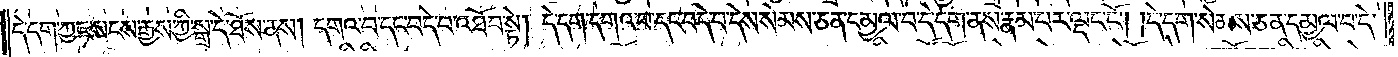དེ་དག་ཀྱང་སངས་རྒྱས་ཀྱི་སྒྲ་དེ་ཐོས་ནས། དགའ་བ་དང་བདེ་བ་འཐོབ་སྟེ། དེ་དག་དགའ་བ་དང་བདེ་བ་དེས་སེམས་ཅན་དམྱལ་བ་དེ་དག་ནས་རྣམ་པར་ལྡང་ངོ༌། །དེ་དག་སེམས་ཅན་དམྱལ་བ་དེ་
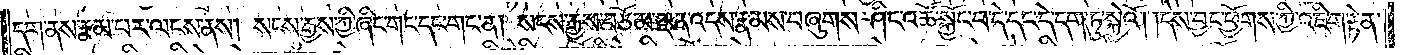དག་ནས་རྣམ་པར་ལངས་ནས། སངས་རྒྱས་ཀྱི་ཞིང་གང་དང་གང་ན། སངས་རྒྱས་བཅོམ་ལྡན་འདས་རྣམས་བཞུགས་ཤིང་འཚོ་སྐྱོང་བ་དེ་དང་དེ་དག་ཏུ་སྐྱེའོ། །དེས་བྱང་ཕྱོགས་ཀྱི་འཇིག་རྟེན་
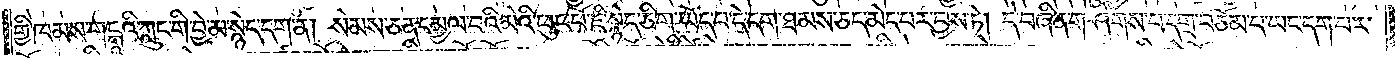གྱི་ཁམས་གངྒཱའི་ཀླུང་གི་བྱེ་མ་སྙེད་དག་ན། སེམས་ཅན་དམྱལ་བའི་མེའི་ཕུང་པོ་ཇི་སྙེད་ཅིག་ཡོད་པ་དེ་དག་ཐམས་ཅད་མེད་པར་བྱས་ཏེ། དེ་བཞིན་གཤེགས་པ་དགྲ་བཅོམ་པ་ཡང་དག་པར་
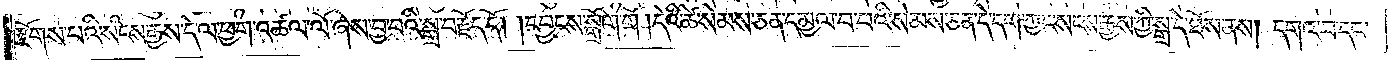རྫོགས་པའི་སངས་རྒྱས་དེ་ལ་ཕྱག་འཚལ་ལོ་ཞེས་བྱ་བའི་སྒྲ་བརྗོད་དོ། །དབྱངས་སྒྲོག་གོ །དེའི་ཚེ་སེམས་ཅན་དམྱལ་བ་པའི་སེམས་ཅན་དེ་དག་ཀྱང་སངས་རྒྱས་ཀྱི་སྒྲ་དེ་ཐོས་ནས། དགའ་བ་དང་
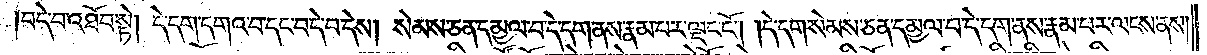བདེ་བ་འཐོབ་སྟེ། དེ་དག་དགའ་བ་དང་བདེ་བ་དེས། སེམས་ཅན་དམྱལ་བ་དེ་དག་ནས་རྣམ་པར་ལྡང་ངོ༌། །དེ་དག་སེམས་ཅན་དམྱལ་བ་དེ་དག་ནས་རྣམ་པར་ལངས་ནས།
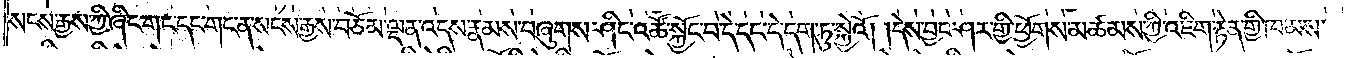སངས་རྒྱས་ཀྱི་ཞིང་གང་དང་གང་ན་སངས་རྒྱས་བཅོམ་ལྡན་འདས་རྣམས་བཞུགས་ཤིང་འཚོ་སྐྱོང་བ་དེ་དང་དེ་དག་ཏུ་སྐྱེའོ། །དེས་བྱང་ཤར་གྱི་ཕྱོགས་མཚམས་ཀྱི་འཇིག་རྟེན་གྱི་ཁམས་
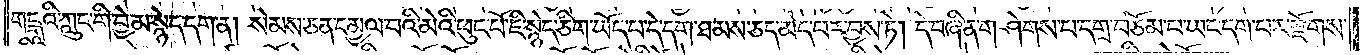གངྒཱའི་ཀླུང་གི་བྱེ་མ་སྙེད་དག་ན། སེམས་ཅན་དམྱལ་བའི་མེའི་ཕུང་པོ་ཇི་སྙེད་ཅིག་ཡོད་པ་དེ་དག་ཐམས་ཅད་མེད་པར་བྱས་ཏེ། དེ་བཞིན་གཤེགས་པ་དགྲ་བཅོམ་པ་ཡང་དག་པར་རྫོགས་
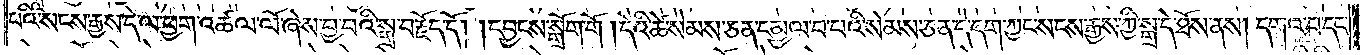པའི་སངས་རྒྱས་དེ་ལ་ཕྱག་འཚལ་ལོ་ཞེས་བྱ་བའི་སྒྲ་བརྗོད་དོ། །དབྱངས་སྒྲོག་གོ །དེའི་ཚེ་སེམས་ཅན་དམྱལ་བ་པའི་སེམས་ཅན་དེ་དག་ཀྱང་སངས་རྒྱས་ཀྱི་སྒྲ་དེ་ཐོས་ནས། དགའ་བ་དང་
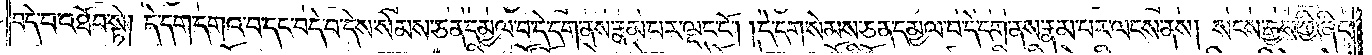བདེ་བ་འཐོབ་སྟེ། དེ་དག་དགའ་བ་དང་བདེ་བ་དེས་སེམས་ཅན་དམྱལ་བ་དེ་དག་ནས་རྣམ་པར་ལྡང་ངོ༌། །དེ་དག་སེམས་ཅན་དམྱལ་བ་དེ་དག་ནས་རྣམ་པར་ལངས་ནས། སངས་རྒྱས་ཀྱི་ཞིང་
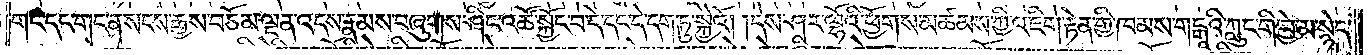གང་དང་གང་ན། སངས་རྒྱས་བཅོམ་ལྡན་འདས་རྣམས་བཞུགས་ཤིང་འཚོ་སྐྱོང་བ་དེ་དང་དེ་དག་ཏུ་སྐྱེའོ། །དེས་ཤར་ལྷོའི་ཕྱོགས་མཚམས་ཀྱི་འཇིག་རྟེན་གྱི་ཁམས་གངྒཱའི་ཀླུང་གི་བྱེ་མ་སྙེད་
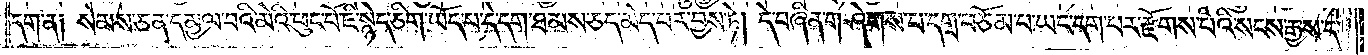དག་ན། སེམས་ཅན་དམྱལ་བའི་མེའི་ཕུང་པོ་ཇི་སྙེད་ཅིག་ཡོད་པ་དེ་དག་ཐམས་ཅད་མེད་པར་བྱས་ཏེ། དེ་བཞིན་གཤེགས་པ་དགྲ་བཅོམ་པ་ཡང་དག་པར་རྫོགས་པའི་སངས་རྒྱས་དེ་
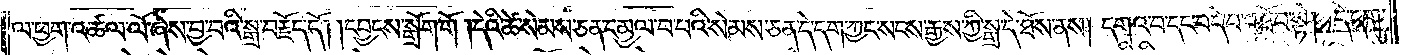ལ་ཕྱག་འཚལ་ལོ་ཞེས་བྱ་བའི་སྒྲ་བརྗོད་དོ། །དབྱངས་སྒྲོག་གོ །དེའི་ཚེ་སེམས་ཅན་དམྱལ་བ་པའི་སེམས་ཅན་དེ་དག་ཀྱང་སངས་རྒྱས་ཀྱི་སྒྲ་དེ་ཐོས་ནས། དགའ་བ་དང་བདེ་བ་འཐོབ་སྟེ། དེ་དག་
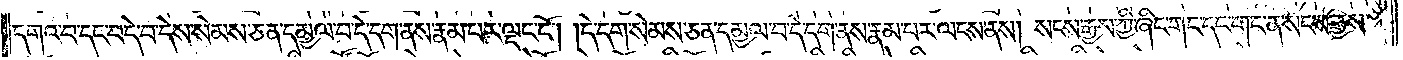དགའ་བ་དང་བདེ་བ་དེས་སེམས་ཅན་དམྱལ་བ་དེ་དག་ནས་རྣམ་པར་ལྡང་ངོ༌། །དེ་དག་སེམས་ཅན་དམྱལ་བ་དེ་དག་ནས་རྣམ་པར་ལངས་ནས། སངས་རྒྱས་ཀྱི་ཞིང་གང་དང་གང་ན། སངས་རྒྱས་
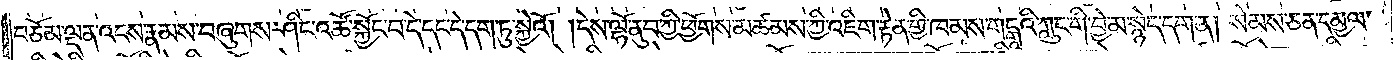བཅོམ་ལྡན་འདས་རྣམས་བཞུགས་ཤིང་འཚོ་སྐྱོང་བ་དེ་དང་དེ་དག་ཏུ་སྐྱེའོ། །དེས་ལྷོ་ནུབ་ཀྱི་ཕྱོགས་མཚམས་ཀྱི་འཇིག་རྟེན་གྱི་ཁམས་གངྒཱའི་ཀླུང་གི་བྱེ་མ་སྙེད་དག་ན། སེམས་ཅན་དམྱལ་
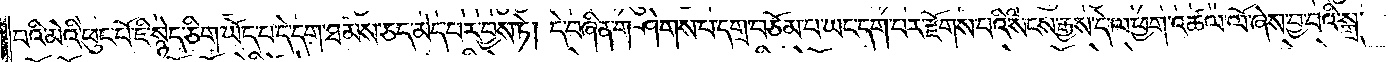བའི་མེའི་ཕུང་པོ་ཇི་སྙེད་ཅིག་ཡོད་པ་དེ་དག་ཐམས་ཅད་མེད་པར་བྱས་ཏེ། དེ་བཞིན་གཤེགས་པ་དགྲ་བཅོམ་པ་ཡང་དག་པར་རྫོགས་པའི་སངས་རྒྱས་དེ་ལ་ཕྱག་འཚལ་ལོ་ཞེས་བྱ་བའི་སྒྲ་
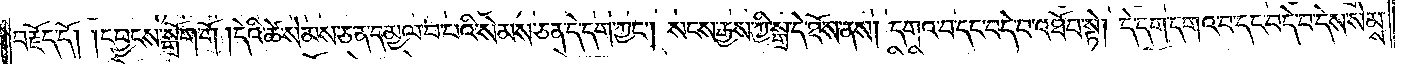བརྗོད་དོ། །དབྱངས་སྒྲོག་གོ །དེའི་ཚེ་སེམས་ཅན་དམྱལ་བ་པའི་སེམས་ཅན་དེ་དག་ཀྱང༌། སངས་རྒྱས་ཀྱི་སྒྲ་དེ་ཐོས་ནས། དགའ་བ་དང་བདེ་བ་འཐོབ་སྟེ། དེ་དག་དགའ་བ་དང་བདེ་བ་དེས་སེམས་
